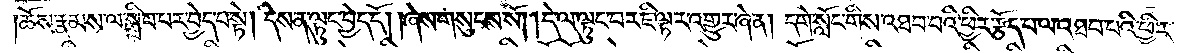ཆོས་རྣམས་ལ་སྒྲིབ་པར་བྱེད་པ་སྟེ། དེས་ན་ལྟུང་བྱེད་དོ། །ཞེས་གསུངས་སོ། །དེ་ལ་ལྟུང་བར་ཇི་ལྟར་འགྱུར་ཞེ་ན། དགེ་སློང་གིས་འཐབ་པའི་ཕྱིར་རྩོད་པ་ལ་འཐབ་པའི་ཕྱིར་
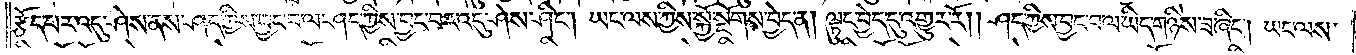རྩོད་པར་འདུ་ཤེས་ནས་ཤད་ཀྱིས་བྱང་བ་ལ་ཤད་ཀྱིས་བྱང་བར་འདུ་ཤེས་ཤིང༌། ཡང་ལས་ཀྱིས་སྐྱོ་སྔོགས་བྱེད་ན། ལྟུང་བྱེད་དུ་འགྱུར་རོ། །ཤད་ཀྱིས་བྱང་བ་ལ་ཡིད་གཉིས་ཟ་ཞིང༌། ཡང་ལས་
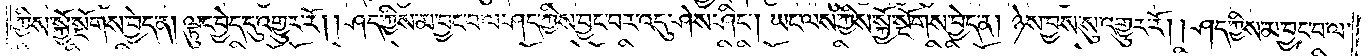ཀྱིས་སྐྱོ་སྔོགས་བྱེད་ན། ལྟུང་བྱེད་དུ་འགྱུར་རོ། །ཤད་ཀྱིས་མ་བྱང་བ་ལ་ཤད་ཀྱིས་བྱང་བར་འདུ་ཤེས་ཤིང༌། ཡང་ལས་ཀྱིས་སྐྱོ་སྔོགས་བྱེད་ན། ཉེས་བྱས་སུ་འགྱུར་རོ། །ཤད་ཀྱིས་མ་བྱང་བ་ལ་
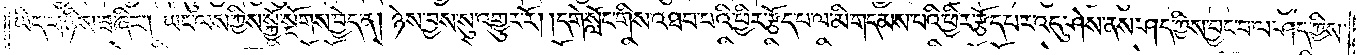ཡིད་གཉིས་ཟ་ཞིང༌། ཡང་ལས་ཀྱིས་སྐྱོ་སྔོགས་བྱེད་ན། ཉེས་བྱས་སུ་འགྱུར་རོ། །དགེ་སློང་གིས་འཐབ་པའི་ཕྱིར་རྩོད་པ་ལ་མི་གདམས་པའི་ཕྱིར་རྩོད་པར་འདུ་ཤེས་ནས་ཤད་ཀྱིས་བྱང་བ་ལ་ཤད་ཀྱིས་
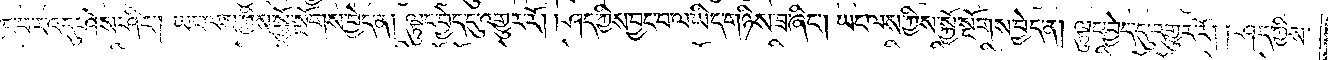བྱང་བར་འདུ་ཤེས་ཤིང༌། ཡང་ལས་ཀྱིས་སྐྱོ་སྔོགས་བྱེད་ན། ལྟུང་བྱེད་དུ་འགྱུར་རོ། །ཤད་ཀྱིས་བྱང་བ་ལ་ཡིད་གཉིས་ཟ་ཞིང༌། ཡང་ལས་ཀྱིས་སྐྱོ་སྔོགས་བྱེད་ན། ལྟུང་བྱེད་དུ་འགྱུར་རོ། །ཤད་ཀྱིས་
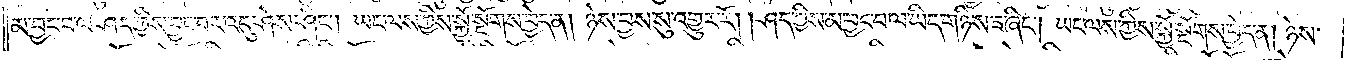མ་བྱང་བ་ལ་ཤད་ཀྱིས་བྱང་བར་འདུ་ཤེས་ཤིང༌། ཡང་ལས་ཀྱིས་སྐྱོ་སྔོགས་བྱེད་ན། ཉེས་བྱས་སུ་འགྱུར་རོ། །ཤད་ཀྱིས་མ་བྱང་བ་ལ་ཡིད་གཉིས་ཟ་ཞིང༌། ཡང་ལས་ཀྱིས་སྐྱོ་སྔགས་བྱེད་ན། ཉེས་
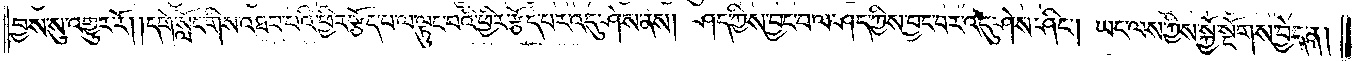བྱས་སུ་འགྱུར་རོ། །དགེ་སློང་གིས་འཐབ་པའི་ཕྱིར་རྩོད་པ་ལ་ལྟུང་བའི་ཕྱིར་རྩོད་པར་འདུ་ཤེས་ནས། ཤད་ཀྱིས་བྱང་བ་ལ་ཤད་ཀྱིས་བྱང་བར་འདུ་ཤེས་ཤིང༌། ཡང་ལས་ཀྱིས་སྐྱོ་སྔོགས་བྱེད་ན།
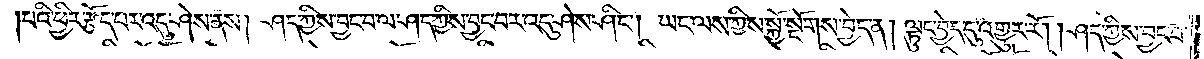པའི་ཕྱིར་རྩོད་པར་འདུ་ཤེས་ནས། ཤད་ཀྱིས་བྱང་བ་ལ་ཤད་ཀྱིས་བྱང་བར་འདུ་ཤེས་ཤིང༌། ཡང་ལས་ཀྱིས་སྐྱོ་སྔོགས་བྱེད་ན། ལྟུང་བྱེད་དུ་འགྱུར་རོ། །ཤད་ཀྱིས་བྱང་བ་
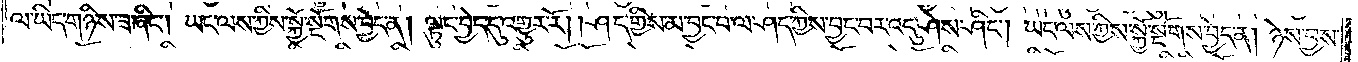ལ་ཡིད་གཉིས་ཟ་ཞིང༌། ཡང་ལས་ཀྱིས་སྐྱོ་སྔོགས་བྱེད་ན། ལྟུང་བྱེད་དུ་འགྱུར་རོ། །ཤད་གྱིས་མ་བྱང་བ་ལ་ཤད་ཀྱིས་བྱང་བར་འདུ་ཤེས་ཤིང༌། ཡང་ལས་ཀྱིས་སྐྱོ་སྔོགས་བྱེད་ན། ཉེས་བྱས་
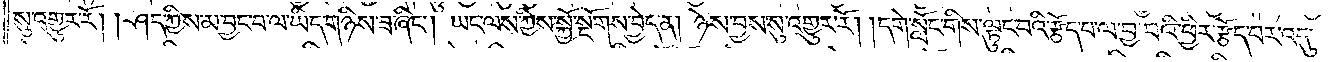སུ་འགྱུར་རོ། །ཤད་ཀྱིས་མ་བྱང་བ་ལ་ཡིད་གཉིས་ཟ་ཞིང༌། ཡང་ལས་ཀྱིས་སྐྱོ་སྔོགས་བྱེད་ན། ཉེས་བྱས་སུ་འགྱུར་རོ། །དགེ་སློང་གིས་ལྟུང་བའི་རྩོད་པ་ལ་བྱ་བའི་ཕྱིར་རྩོད་པར་འདུ་
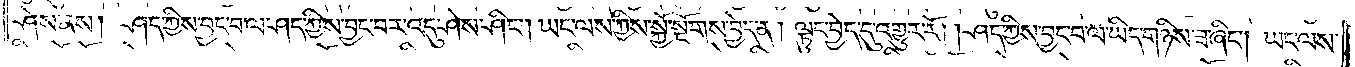ཤེས་ནས། ཤད་ཀྱིས་བྱང་བ་ལ་ཤད་ཀྱིས་བྱང་བར་འདུ་ཤེས་ཤིང༌། ཡང་ལས་ཀྱིས་སྐྱོ་སྔོགས་བྱེད་ན། ལྟུང་བྱེད་དུ་འགྱུར་རོ། །ཤད་ཀྱིས་བྱང་བ་ལ་ཡིད་གཉིས་ཟ་ཞིང༌། ཡང་ལས་
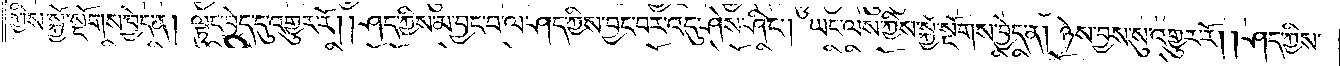ཀྱིས་སྐྱོ་སྔོགས་བྱེད་ན། ལྟུང་བྱེད་དུ་འགྱུར་རོ། །ཤད་ཀྱིས་མ་བྱང་བ་ལ་ཤད་ཀྱིས་བྱང་བར་འདུ་ཤེས་ཤིང༌། ཡང་ལས་ཀྱིས་སྐྱོ་སྔོགས་བྱེད་ན། ཉེས་བྱས་སུ་འགྱུར་རོ། །ཤད་ཀྱིས་
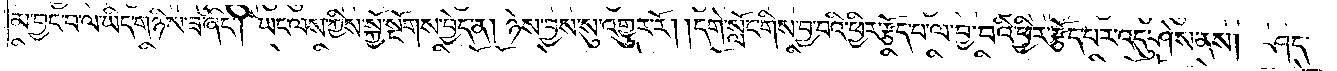མ་བྱང་བ་ལ་ཡིད་གཉིས་ཟ་ཞིང༌། ཡང་ལས་ཀྱིས་སྐྱོ་སྔོགས་བྱེད་ན། ཉེས་བྱས་སུ་འགྱུར་རོ། །དགེ་སློང་གིས་བྱ་བའི་ཕྱིར་རྩོད་པ་ལ་བྱ་བའི་ཕྱིར་རྩོད་པར་འདུ་ཤེས་ནས། ཤད་
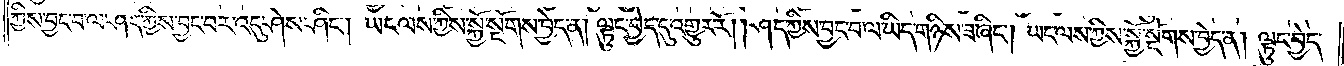ཀྱིས་བྱང་བ་ལ་ཤད་ཀྱིས་བྱང་བར་འདུ་ཤེས་ཤིང༌། ཡང་ལས་ཀྱིས་སྐྱོ་སྔོགས་བྱེད་ན། ལྟུང་བྱེད་དུ་འགྱུར་རོ། །ཤད་ཀྱིས་བྱང་བ་ལ་ཡིད་གཉིས་ཟ་ཞིང༌། ཡང་ལས་ཀྱིས་སྐྱོ་སྔོགས་བྱེད་ན། ལྟུང་བྱེད་
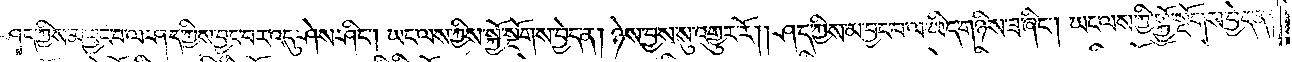ཤད་ཀྱིས་མ་བྱང་བ་ལ་ཤད་ཀྱིས་བྱང་བར་འདུ་ཤེས་ཤིང༌། ཡང་ལས་ཀྱིས་སྐྱོ་སྔོགས་བྱེད་ན། ཉེས་བྱས་སུ་འགྱུར་རོ། །ཤད་ཀྱིས་མ་བྱང་བ་ལ་ཡིད་གཉིས་ཟ་ཞིང༌། ཡང་ལས་ཀྱི་སྐྱོ་སྔོགས་བྱེད་ན།
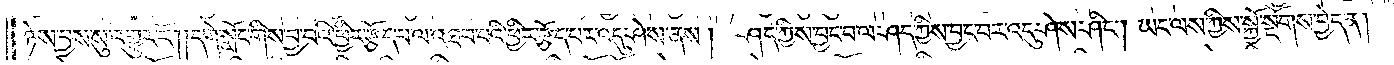ཉེས་བྱས་སུ་འགྱུར་རོ། །དགེ་སློང་གིས་བྱ་བའི་ཕྱིར་རྩོད་པ་ལ་འཐབ་པའི་ཕྱིར་རྩོད་པར་འདུ་ཤེས་ནས། ཤད་ཀྱིས་བྱང་བ་ལ་ཤད་ཀྱིས་བྱང་བར་འདུ་ཤེས་ཤིང༌། ཡང་ལས་ཀྱིས་སྐྱོ་སྔོགས་བྱེད་ན།
